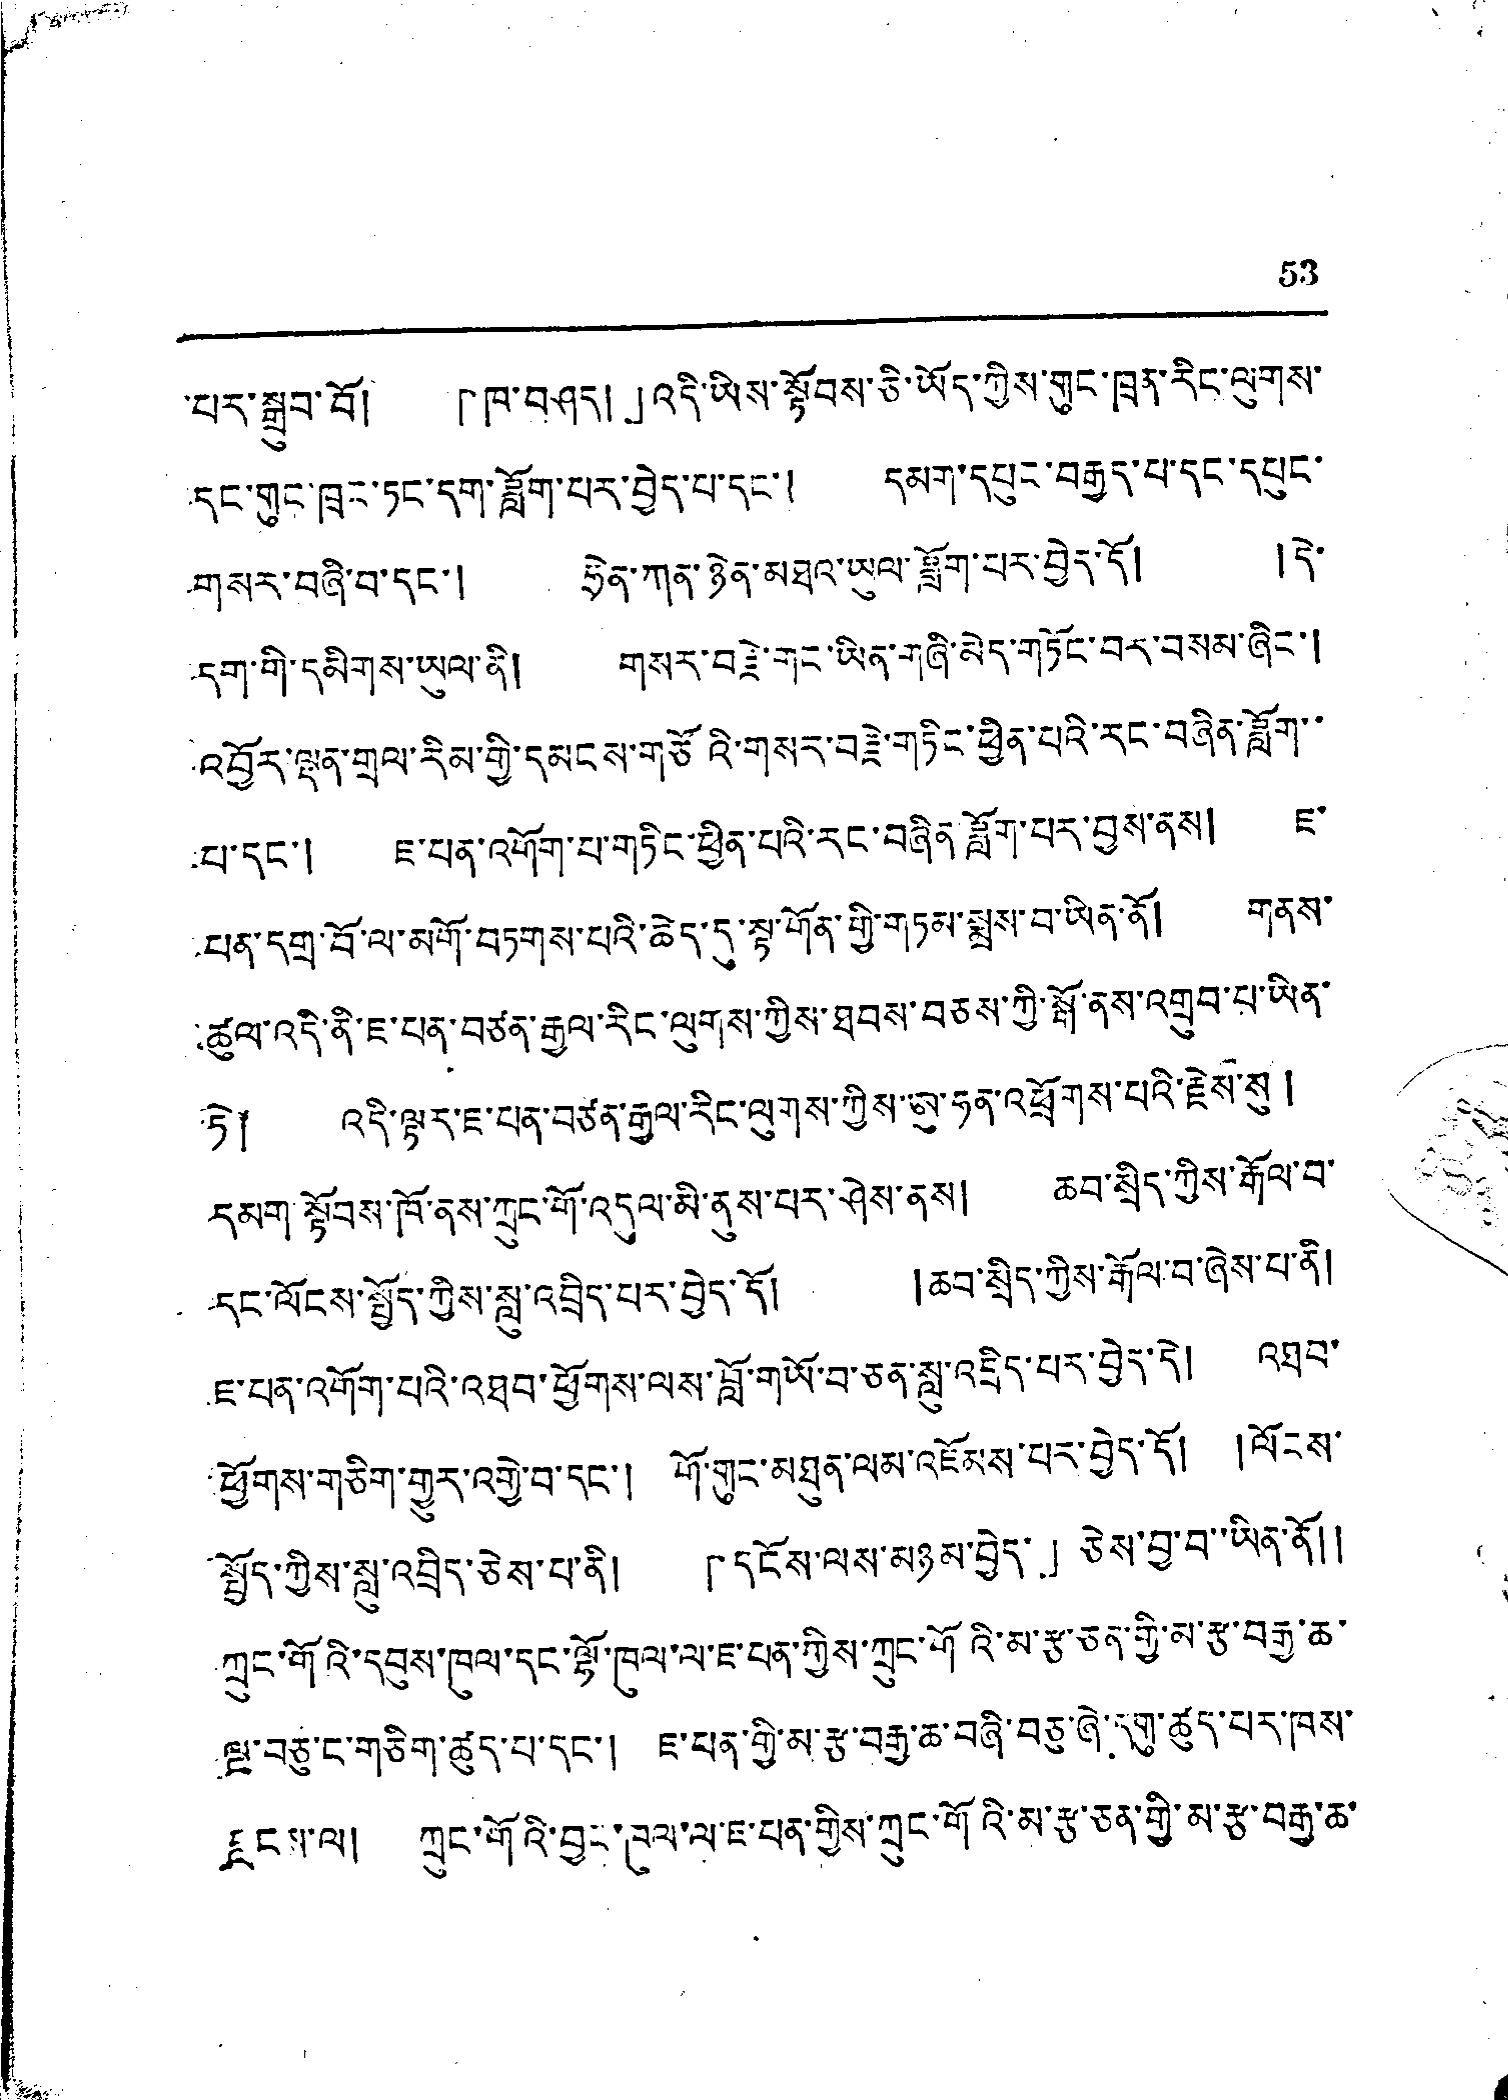53
པར་སྒྲུབ་བོ། 「ཁ་བཤད།」འདི་ཡིས་སྟོབས་ཅི་ཡོད་ཀྱིས་གུང་ཁྲན་རིང་ལུགས་
དང་གུང་ཁྲང་ཏང་དག་ཟློག་པར་བྱེད་པ་དང་། དམག་དཔུང་བརྒྱད་པ་དང་དཔུང་
གསར་བཞི་བ་དང་། ཧྲེན་ཀན་ཉེན་མཐའ་ཡུལ་ཟློག་པར་བྱེད་དོ། །དེ་
དག་གི་དམིགས་ཡུལ་ནི། གསར་བརྗེ་གང་ཡིན་གཞི་མེད་གཏོང་བར་བསམ་ཞིང་།
འབྱོར་ལྡན་གྲལ་རིམ་གྱི་དམངས་གཙོའི་གསར་བརྗེ་གཏིང་ཕྱིན་པའི་རང་བཞིན་ཟློག་་
པ་དང་། ཇ་པན་འགོག་པ་གཏིང་ཕྱིན་པའི་རང་བཞིན་ཟློག་པར་བྱས་ནས། ཇ་
པན་དགྲ་བོ་ལ་མགོ་བཏགས་པའི་ཆེད་དུ་སྟ་གོན་གྱི་གཏམ་སྨྲས་བ་ཡིན་ནོ། གནས་
ཚུལ་འདི་ནི་ཇ་པན་བཙན་རྒྱལ་རིང་ལུགས་ཀྱིས་ཐབས་བཅས་ཀྱི་སྒོ་ནས་འགྲུབ་པ་ཡིན་
ཏེ༐ འདི་ལྟར་ཇ་པན་བཙན་རྒྱལ་རིང་ལུགས་ཀྱིས་ཨུ་ཧན་འཕྲོགས་པའི་རྗེས་སུ།
དམག་སྟོབས་ཁོ་ནས་ཀྲུང་གོ་འདུལ་མི་ནུས་པར་ཤེས་ནས། ཆབ་སྲིད་ཀྱིས་རྒོལ་བ་
དང་ལོངས་སྤྱོད་ཀྱིས་སླུ་འབྲིད་པར་བྱེད་དོ། །ཆབ་སྲིད་ཀྱིས་རྒོལ་བ་ཞེས་པ་ནི།
ཇ་པན་འགོག་པའི་འཐབ་ཕྱོགས་ལས་བློ་གཡོ་བ་ཅན་སླུ་འདྲིད་པར་བྱེད་དེ། འཐབ་
ཕྱོགས་གཅིག་གྱུར་འགྱི་བ་དང་། གོ་གུང་མཐུན་ལམ་འཇོམས་པར་བྱེད་དོ། །ལོངས་
སྤྱོད་ཀྱིས་སླུ་འབྲིད་ཅེས་པ་ནི། 「དངོས་ལས་མཉམ་བྱེད་」ཅེས་བྱ་བ་ཡིན་ནོ།།
ཀྲུང་གོའི་དབུས་ཁུལ་དང་ལྷོ་ཁུལ་ལ་ཇ་པན་ཀྱིས་ཀྲུང་གོའི་མ་རྩ་ཅན་གྱི་མ་རྩ་བརྒྱ་ཆ་
ལྔ་བཅུ་ང་གཅིག་ཚུད་པ་དང་། ཇ་པན་གྱི་མ་རྩ་བརྒྱ་ཆ་བཞི་བཅུ་ཞེ་དགུ་ཚུད་པར་ཁས་
བླངས་ལ། ཀྲུང་གོའི་བྱང་ཁུལ་ལ་ཇ་པན་གྱིས་ཀྲུང་གོའི་མ་རྩ་ཅན་གྱི་མ་རྩ་བརྒྱ་ཆ་
